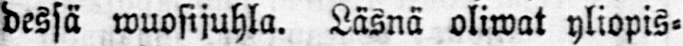dessä wuosijuhla. Läsnä oliwat yliopis-
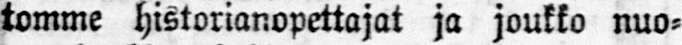tomme historianopettajat ja joukko nuo-
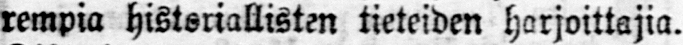rempia historiallisten tieteiden harjoittajia.
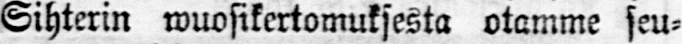Sihterin wuosikertomuksesta otamme seu-
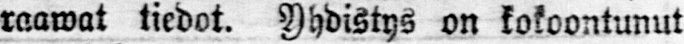raawat tiedot. Yhdistys on kokoontunut
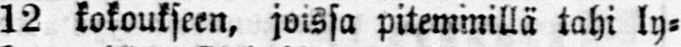12 kokoukseen, joissa pitemmillä tahi ly-
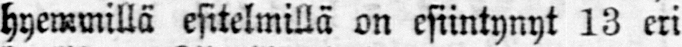hyemmillä esitelmillä on esiintynyt 13 eri
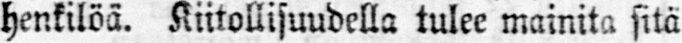henkilöä. Kiitollisuudella tulee mainita sitä
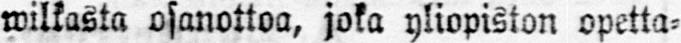wilkasta osanottoa, joka yliopiston opetta-
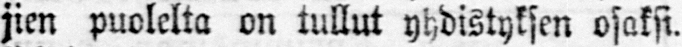jien puolelta on tullut yhdistyksen osaksi,
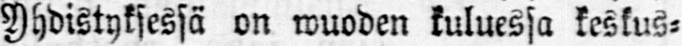Yhdistyksessä on wuoden kuluessa keskus-
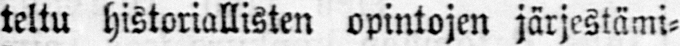teltu historiallisten opintojen järjestämi-
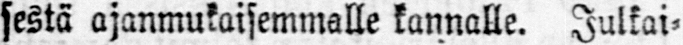sestä ajanmukaisemmalle kannalle. Julkai-
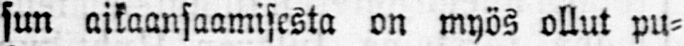sun aikaansaamisesta on myös ollut pu-
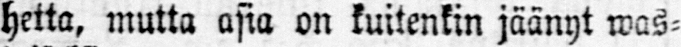hetta, mutta asia on kuitenkin jäänyt was-
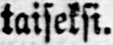taiseksi.
